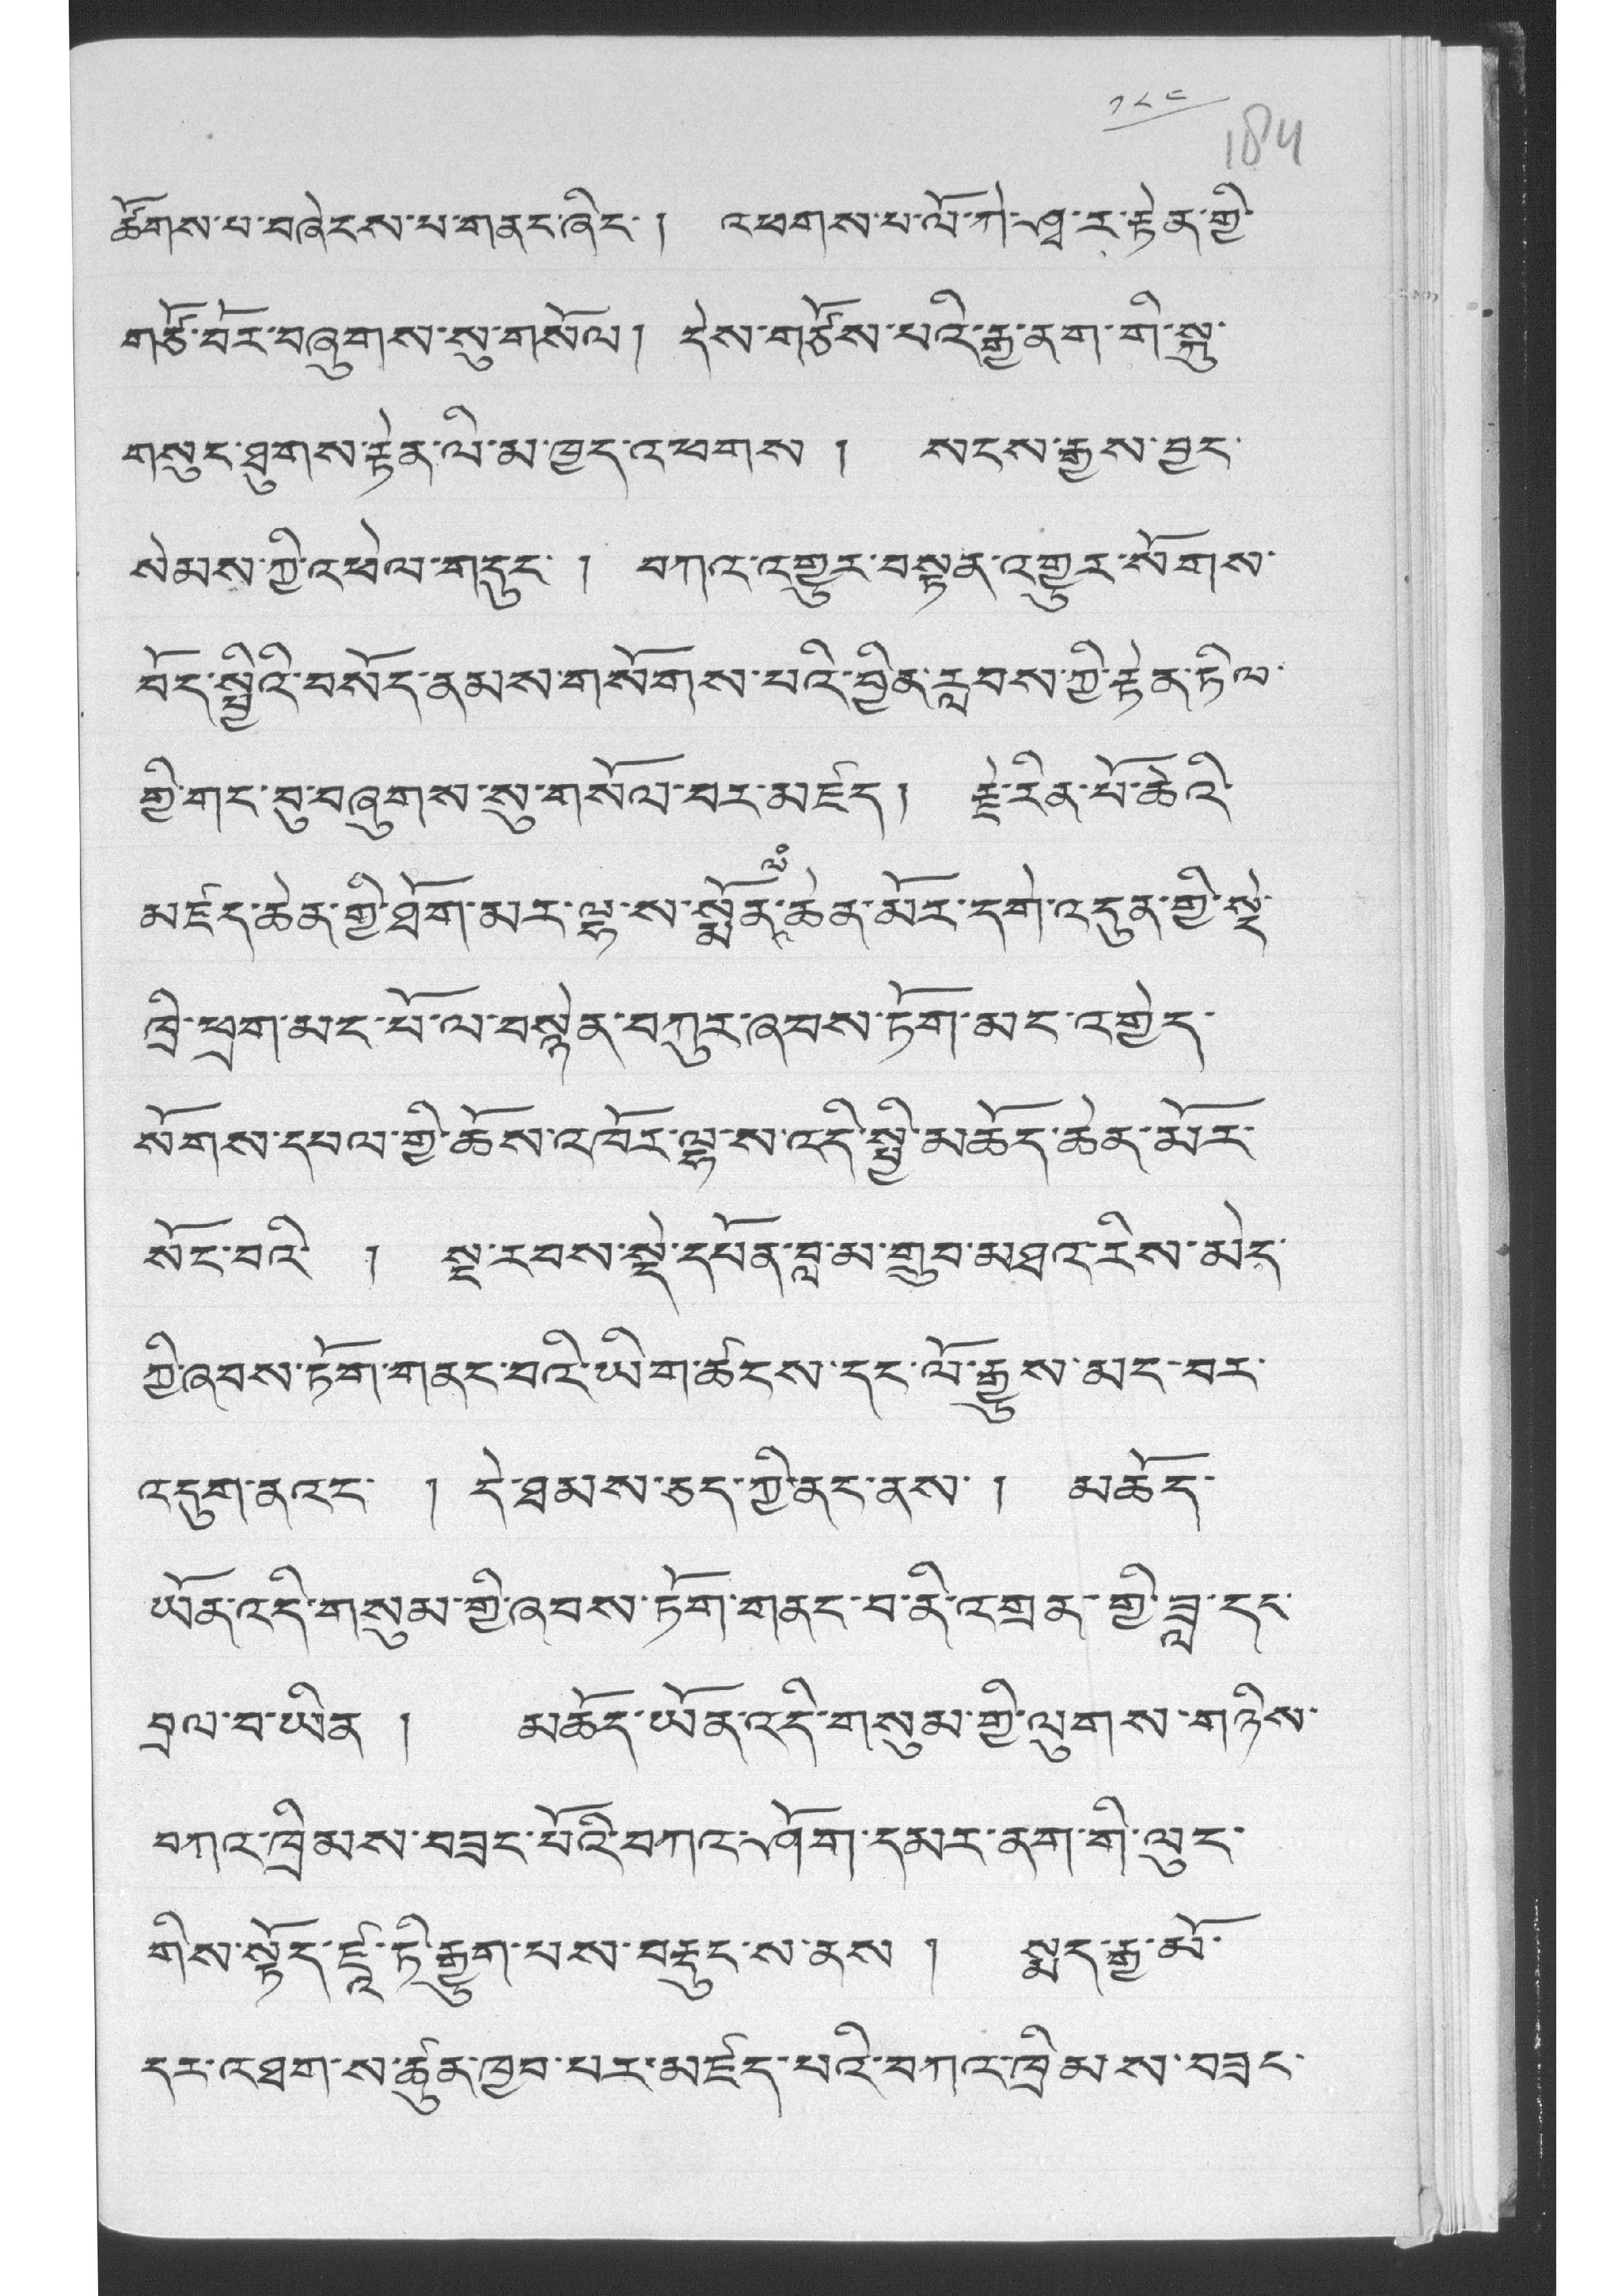༡༨༤
ཚོགས་པ་བཞེངས་པ་གནང་ཞིང་། འཕགས་པ་ལོ་ཀེ་ཤྭ་ར་རྟེན་གྱི་
གཙོ་བོར་བཞུགས་སུ་གསོལ། དེས་གཙོས་པའི་རྒྱ་ནག་གི་སྐུ་
གསུང་ཐུགས་རྟེན་ལི་མ་ཁྱད་འཕགས ། སངས་རྒྱས་བྱང་
སེམས་ཀྱི་འཕེལ་གདུང་ ། བཀའ་འགྱུར་བསྟན་འགྱུར་སོགས་
བོད་སྤྱིའི་བསོད་ནམས་གསོགས་པའི་བྱིན་རླབས་ཀྱི་རྟེན་ཏིལ་
གྱི་གང་བུ་བཞུགས་སུ་གསོལ་བར་མཛད། རྗེ་རིན་པོ་ཆེའི་
མཛད་ཆེན་གྱི་ཐོག་མར་ལྷ་ས་སྨོན་ལཾ་ཆེན་མོར་དགེ་འདུན་གྱི་སྡེ་
ཁྲི་ཕྲག་མང་པོ་ལ་བསྙེན་བཀུར་ཞབས་ཏོག་མང་འགྱེད་
སོགས་དཔལ་གྱི་ཆོས་འཁོར་ལྷ་ས་འདི་སྤྱི་མཆོད་ཆེན་མོར་
སོང་བའི་ ། སྔ་རབས་སྡེ་དཔོན་བླ་མ་གྲུབ་མཐའ་རིས་མེད་
ཀྱི་ཞབས་ཏོག་གནང་བའི་ཡིག་ཚངས་དང་ལོ་རྒྱུས་མང་བར་
འདུག་ནའང་ ། དེ་ཐམས་ཅད་ཀྱི་ནང་ནས་ ། མཆོད་
ཡོན་འདི་གསུམ་གྱི་ཞབས་ཏོག་གནང་བ་ནི་འགྲན་གྱི་ཟླ་དང་
བྲལ་བ་ཡིན ། མཆོད་ཡོན་འདི་གསུམ་གྱི་ལུགས་གཉིས་
བཀའ་ཁྲིམས་བཟང་པོའི་བཀའ་ཤོག་དམར་ནག་གི་ལུང་
གིས་སྟོད་ཛཱ་ཏི་རྒྱུག་པས་བརྡུང་ས་ནས ། སྨད་རྒྱ་མོ་
དར་འཐག་ས་ཚུན་ཁྱབ་པར་མཛད་པའི་བཀའ་ཁྲིམས་བཟང་
